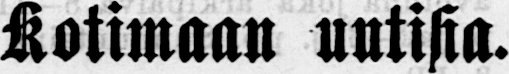Kotimaan untisia.
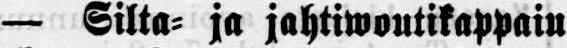— Silta- ja jahtiwoutikappain
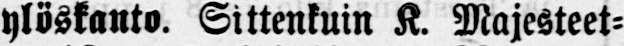ylöskanto. Sittenkuin K. Majesteet-
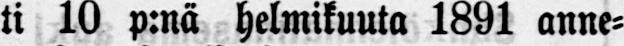ti 10 p:nä helmikuuta 1891 anne-
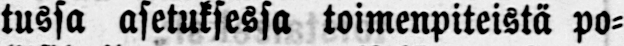tussa asetuksessa toimenpiteistä po-
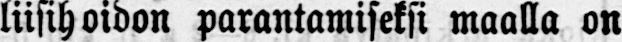liisihoidon parantamiseksi maalla on
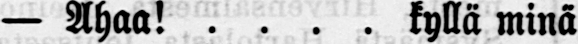— Ahaa! . . . . kyllä minä
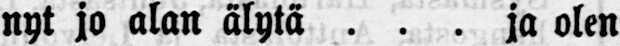nyt jo alan älytä . . . ja olen
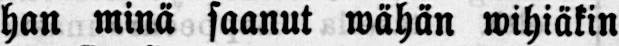han minä saanut wähän wihiäkin
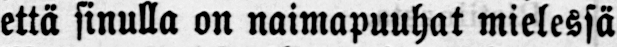että sinulla on naimapuuhat mielessä
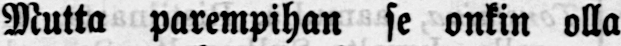Mutta parempihan se onkin olla
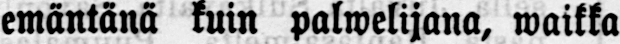emäntänä kuin palwelijana, waikka
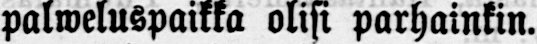palweluspaikka olisi parhainkin.
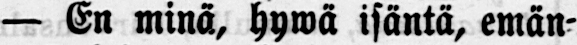— En minä, hywä isäntä, emän-
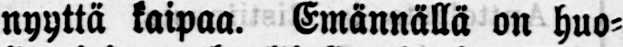nyyttä kaipaa. Emännällä on huo-
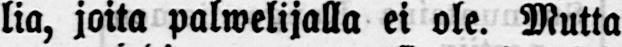lia, joita palwelijalla ei ole. Mutta
